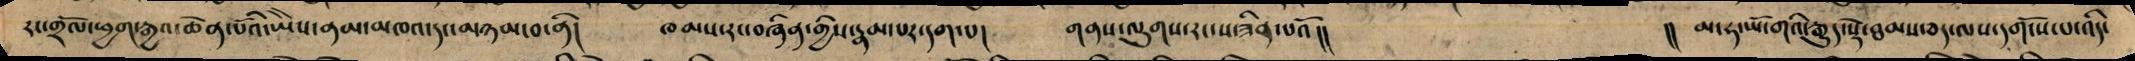རང་གྲོལ་ཕྱག་རྒྱའ་ཆེན་པོའི་ཡཻས་ནམ་མཁའ་དང་མཉམ་བ་ནི། ཁམས་རང་བཞིན་གྱིས་རྣམ་པར་དག་པ། གནས་ལུགས་རང་ས་ཟིན་པའོ།། །། མ་ཧ་ཡོ་གའི་རྒྱུད་སྡེ་ཐམས་ཅད་ལས་དགོངས་པ་འདི་
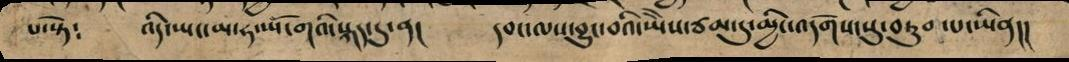པ་སྟེ༴ འདི་ཡང་མ་ཧ་ཡོ་གའི་སྐད་དུ་ན། དབང་ལས་བྱུང་བའི་ཡཻས་ཙམ་དུ་མྱིང་འདོགས་སུ་བཏུབ་པ་ཡིན།།
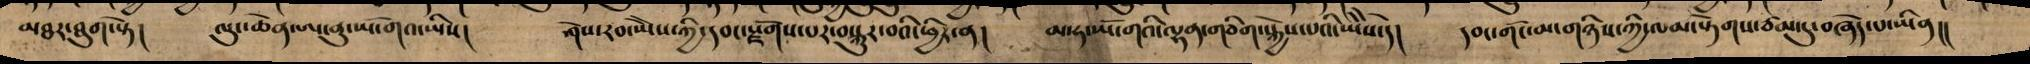མཐར་ཐུག་སྟེ། ལུང་ཆེན་ཨ ནུ་ཡོ་གའ་ཡིས། ཤེས་རབ་ཡཻས་ཀྱི་དབང་སྫོགས་པར་བསྐུར་བའི་ཕྱིར་ན། མ་ཧ་ཡོ་གའི་ལྷན་གཅིག་སྐྱེས་པའི་ཡཻས་དེ། དབང་གོང་མ་གཉིས་ཀྱི་ལམ་སྟེགས་ཙམ་དུ་བཞེད་པ་ཡིན།།
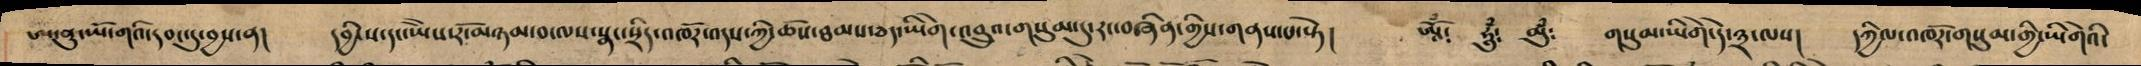ཨ་ནུ་ཡོ་གའི་དབང་དུ་བྱས་ན། དབྱིངས་དང་ཡཻས་རོ་མཉམ་བ་ལས་སྣང་སྲིད་འཁོར་འདས་ཀྱི་ཆོས་ཐམས་ཅད་ཡིགེ་འབྲུའ་གསུམ་དུ་རང་བཞཱིན་གྱིས་གནས་པ་སྟེ། ཨཱོཾ༴ ཧཱུྃ༴ མུྃ༴ གསུམ་ཡིགེ་དེ་༣་ལས། དཀྱིལ་འཁོར་གསུམ་གྱི་ཡིགེའི་
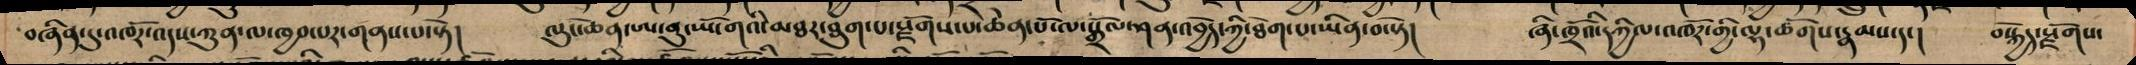བཞིན་དུ་འཁོར་འདས་ཀུན་ལ་ཁྱབ་པར་གནས་པ་སྟེ། ལུང་ཆེན་ཨ་ནུ་ཡོ་གའི་མཐར་ཐུག་པ་སྫོགས་པ་ཆེན་པོ་ལ་སྒྲོལ་ཤན་འབྱེད་ཀྱི་ཐེག་པ་ཡིན་བ་སྟེ། ཞི་ཁྲོ་དཀྱིལ་འཁོར་གྱི་ལྷ་ཚོགས་རྣམས་དང། བསྐྱེད་སྫོགས་
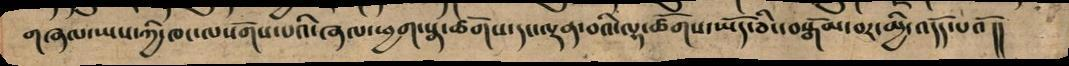གཞལ་ཡས་ཀྱི་ཁང་ལསོགས་པའི་ཞལ་ཕྱག་སྣ་ཚོགས་དང་ལྡན་བའི་ལྷ་ཚོགས་ཡོད་ཅིང་བསྒོམ་བར་མྱི་འདོད་པའོ།།
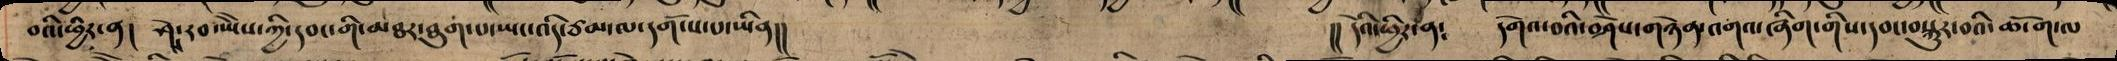བའི་ཕྱིར་ན། ཤེ་རབ་ཡེེས་ཀྱི་དབང་གི་མཐར་ཐཱུག་པ་ཡང་འདི་ཙམ་ལ་དགོངས་པ་ཡིན།། །།དེའི་ཕྱིར་ན༴ དགེའ་བའི་བཤེས་གཉེན་འགའ་ཞིག་གིས་དབང་བསྐུར་བའི་ཆོ་ག་ལ
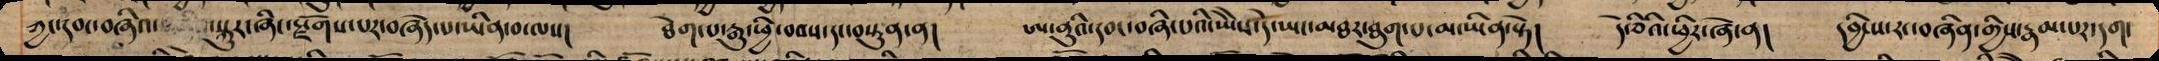ཀྱང་དབང་བཞིའ་ སྐུར་ཞིང་སྫོགས་པར་བཞེད་པ་ཡིན་བ་ལས། ཐེག་པ་རྒྱུ་ཕྱི་བབས་དང་བསྟུན་ན། ཨ་ནུའི་དབང་བཞི་པའི་ཡཻས་དེ་ཡང་མཐར་ཐུག་པ་མ་ཡིན་སྟེ། དེ་ཅིའི་ཕྱིར་ཞེ་ན། དབྱིངས་རང་བཞིན་གྱིས་རྣམ་པར་དག་
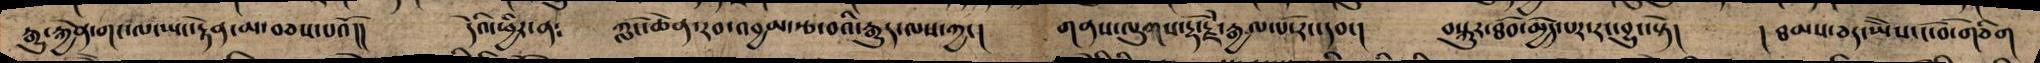རྒྱུ་རྐྱེན་གང་ལ་ཡང་རྟེན་མ་བཅས་པའོ།། དེའི་ཕྱིར་ན༴ ཀློང་ཆེན་རབ་འབྱམ་རྩ་བའི་རྒྱུད་ལས་ཀྱང། གནས་ལུགས་རྡོ་རྗེ་རྒྱལ་པོ་རང་དབང། བསྐུར་ཐོབ་མྱེད་པར་རང་བྱུང་སྟེ། །ཐམས་ཅད་ཡཻས་ངོ་བོ་གཅིག
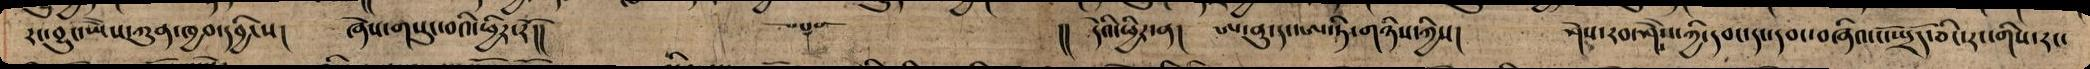རང་བྱུང་ཡཻས་ཀུན་ཁྱབ་དབྱིངས། ཞེས་གསུང་བའི་ཕྱིར་རོ།། ༒   །། དེའི་ཕྱིར་ན། ཨ་ནུ་དང་ཨ་ཏི་གཉིས་ཀྱིས། ཤེས་རབ་ཤཻས་ཀྱི་དབང་དང་དབང་བཞིའ་ངོ་སྤྲོད་ཅིང་རང་གིས་རང་
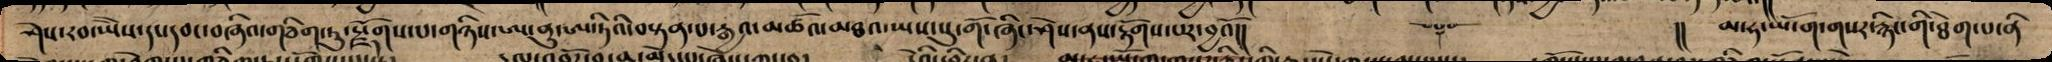ཤེས་རབ་ཡཻས་དང་དབང་བཞིའ་གཅིག་ཏུ་སྫོགས་པ་གཉིས་ཨ་ནུ་ཨ་ཏིའི་བསྟན་པ་རྒྱའ་མཚོའ་མཐའ་ཡས་སུ་གོ་ཞིང་ཤེས་ནས་རྟོགས་པར་བྱའོ།། ༒   །། མ་ཧ་ཡོ་ག་གསར་རྙིང་གི་ཐེག་པ་ནི
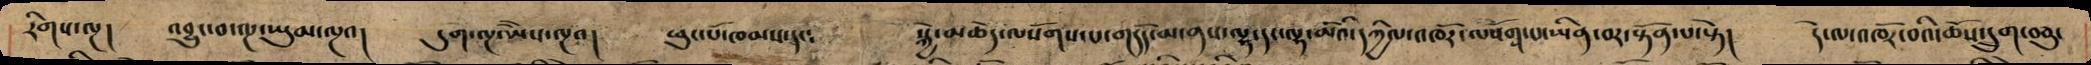རིགས་ལྔ། འབྱུང་བ་ལྔ་ཡུམ་ལྔའ། དུག་ལྔ་ཡཻས་ལྔའ། ཕུང་པོ་ཁམས་དང༴ སྐྱེ་མཆེད་ལསོགས་པ་གདོད་མ་ནས་ལྷ་དང་ལྷ་མོའི་དཀྱིལ་འཁོར་ལསོགས་པ་ཡིན་བར་སྟོན་པ་སྟེ། དེ་ལ་འཁོར་བའི་ཆོས་དྲུག་བཅུ་
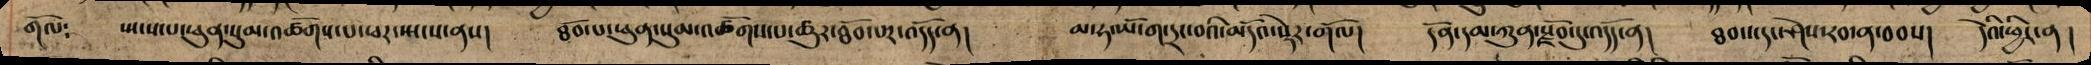གོལ༴ སྤངས་པ་ཕུན་སུམ་འཚོགས་པ་ཕར་སྤངས་ནས། ཐོབ་པ་ཕུན་སུམ་འཚོགས་པ་ཚུར་ཐོབ་པར་འདོད་ན། མ་ཧ་ཡོ་ག་དྲང་བའི་མདོའི་སྡེར་གོལ། དོན་དམ་ཀུན་སྫོབ་དུ་འདོད་ན། ཐབས་དང་ཤེས་རབ་ན་བབས། དེའི་ཕྱིར་ན།
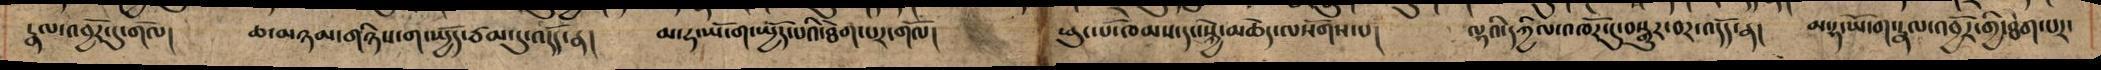རྣལ་འབྱོར་དུ་གོལ། ཆ་མཉམ་གཉིས་ག་སྤྱོད་ཙམ་དུ་འདོད་ན། མ་ཧ་ཡོ་ག་སྤྱོད་པའི་ཐེག་པར་གོལ། ཕུང་པོ་ཁམས་དང་སྐྱེ་མཆེད་ལསོགས་པ། ལྷའི་དཀྱིལ་འཁོར་དུ་བསྒྱུར་བར་འདོད་ན། མ་ཧ་ཡོ་ག་རྣལ་འབྱོར་གྱི་ཐེག་པར་
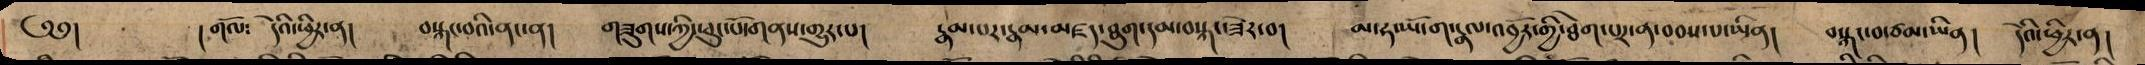༄༅། །གོལ༴ དེའི་ཕྱིར་ན། བསྐང་བའི་ནང་ན། གཟུགས་ཀྱི་ཕུང་པོ་གནས་གྱུར་པ། རྣམ་པར་རྣམ་མཛད་ཐུག་དམ་བསྐང་ཟེར་བ། མ་ཧ་ཡོ་ག་རྣལ་འབྱོར་གྱི་ཐེག་པར་ན་བབས་པ་ཡིན། བསྐང་བ་ཙམ་ཡིན། དེའི་ཕྱིར་ན།
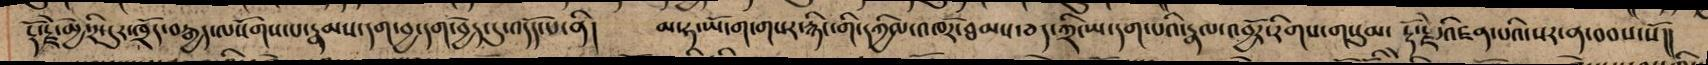རྡོ་རྗེ་མྱེ་རི་དུར་ཁྲོད་བརྒྱད་ལསོགས་པ་རྣམས་དག་བྱ་དག་བྱེད་དུ་འདོད་པ་ནི། མ་ཧ་ཡོ་ག་གསར་རྙིང་གི་དཀྱིལ་འཁོར་ཐམས་ཅད་ཀྲི་ཡ་དག་པའི་རྣལ་འབྱོར་རིགས་གསུམ་ རྡོ་རྗེ་འཛིན་པཔའི་སར་ན་བབས་སོ།།
